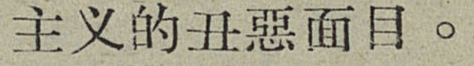主义的丑惡面目。
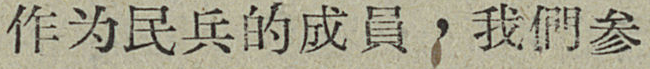作为民兵的成員，我們参
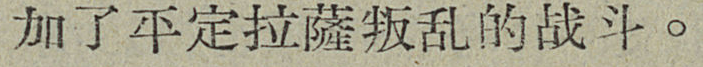加了平定拉薩叛乱的战斗。
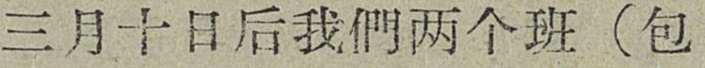三月十日后我們两个班（包
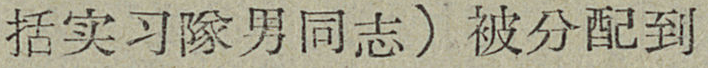括实习隊男同志）被分配到
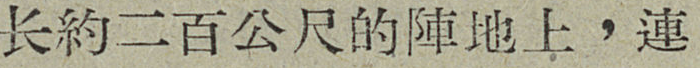长約二百公尺的陣地上，連
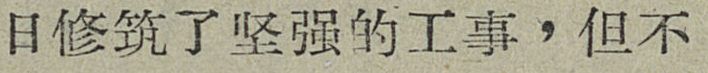日修筑了坚强的工事，但不
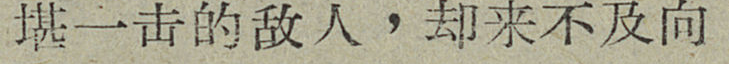堪一击的敌人，却来不及向
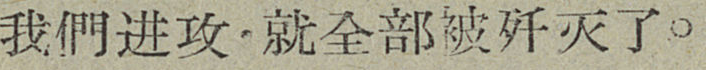我們进攻，就全部歼灭了。
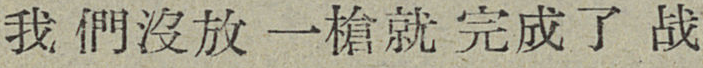我們沒放一槍就完成了战
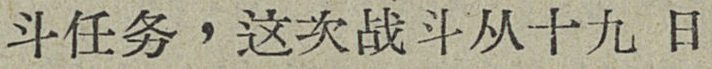斗任务，这次战斗从十九日
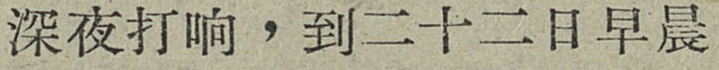深夜打响，到二十二日早晨
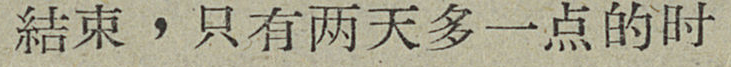結束，只有两天多一点的时
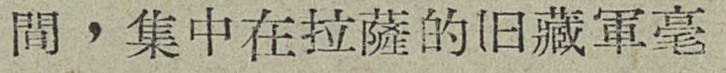間，集中在拉薩的旧藏軍毫
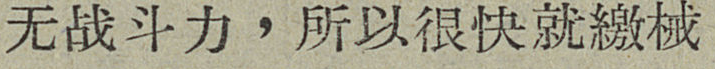无战斗力，所以很快就繳械
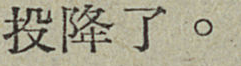投降了。
